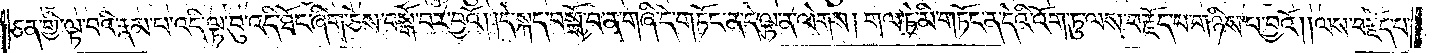ཅན་གྱི་ལྟ་བའི་རྣམ་པ་འདི་ལྟ་བུ་འདི་ཐོང་ཞིག་ཅེས་བསྒོ་བར་བྱའོ། །དེ་སྐད་བསྒོ་བ་ན་གཞི་དེ་གཏོང་ན་དེ་ལྟ་ན་ལེགས། གལ་ཏེ་མི་གཏོང་ན་དེའི་འོག་ཏུ་ལས་བརྗོད་པ་གཉིས་པ་བྱའོ། །ལས་བརྗོད་པ་
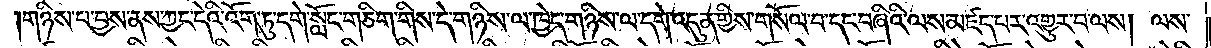གཉིས་པ་བྱས་ནས་ཀྱང་དེའི་འོག་ཏུ་དགེ་སློང་གཅིག་གིས་དེ་གཉིས་ལ་ཁྱེད་གཉིས་ལ་དགེ་འདུན་གྱིས་གསོལ་བ་དང་བཞིའི་ལས་མཛད་པར་འགྱུར་བ་ལས། ལས་
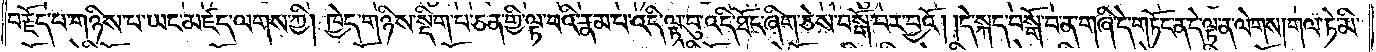བརྗོད་པ་གཉིས་པ་ཡང་མཛད་ལགས་ཀྱི། ཁྱེད་གཉིས་སྡིག་པ་ཅན་གྱི་ལྟ་བའི་རྣམ་པ་འདི་ལྟ་བུ་འདི་ཐོང་ཞིག་ཅེས་བསྒོ་བར་བྱའོ། །དེ་སྐད་བསྒོ་བ་ན་གཞི་དེ་གཏོང་ན་དེ་ལྟ་ན་ལེགས། གལ་ཏེ་མི་
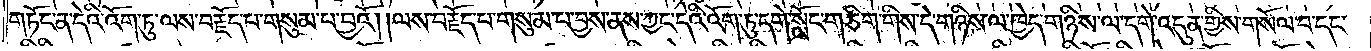གཏོང་ན་དེའི་འོག་ཏུ་ལས་བརྗོད་པ་གསུམ་པ་བྱའོ། །ལས་བརྗོད་པ་གསུམ་པ་བྱས་ནས་ཀྱང་དེའི་འོག་ཏུ་དགེ་སློང་གཅིག་གིས་དེ་གཉིས་ལ་ཁྱེད་གཉིས་ལ་དགེ་འདུན་གྱིས་གསོལ་བ་དང་
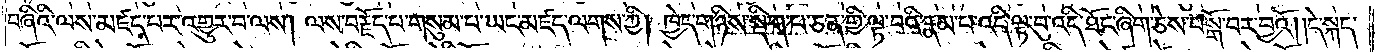བཞིའི་ལས་མཛད་པར་འགྱུར་བ་ལས། ལས་བརྗོད་པ་གསུམ་པ་ཡང་མཛད་ལགས་ཀྱི། ཁྱེད་གཉིས་སྡིག་པ་ཅན་གྱི་ལྟ་བའི་རྣམ་པ་འདི་ལྟ་བུ་འདི་ཐོང་ཞིག་ཅེས་བསྒོ་བར་བྱའོ། །དེ་སྐད་
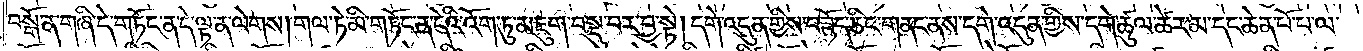བསྒོ་ན་གཞི་དེ་གཏོང་ན་དེ་ལྟ་ན་ལེགས། གལ་ཏེ་མི་གཏོང་ན་དེའི་འོག་ཏུ་མཇུག་བསྡུ་བར་བྱ་སྟེ། དགེ་འདུན་གྱིས་བཟོད་ཅིང་གནང་ནས་དགེ་འདུན་གྱིས་དགེ་ཚུལ་ཚེར་མ་དང་ཆེན་པོ་པ་ལ་
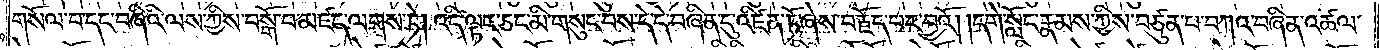གསོལ་བ་དང་བཞིའི་ལས་ཀྱིས་བསྒོ་བ་མཛད་ལགས་ཏེ། འདི་ལྟར་ཅང་མི་གསུང་བས་དེ་དེ་བཞིན་དུ་འཛིན་ཏོ་ཞེས་བརྗོད་པར་བྱའོ། །དགེ་སློང་རྣམས་ཀྱིས་བཙུན་པ་བཀའ་བཞིན་འཚལ་
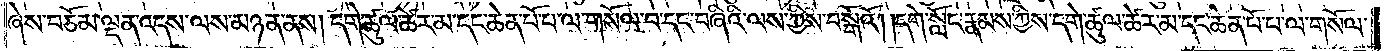ཞེས་བཅོམ་ལྡན་འདས་ལས་མཉན་ནས། དགེ་ཚུལ་ཚེར་མ་དང་ཆེན་པོ་པ་ལ་གསོལ་བ་དང་བཞིའི་ལས་ཀྱིས་བསྒོའོ། །དགེ་སློང་རྣམས་ཀྱིས་དགེ་ཚུལ་ཚེར་མ་དང་ཆེན་པོ་པ་ལ་གསོལ་
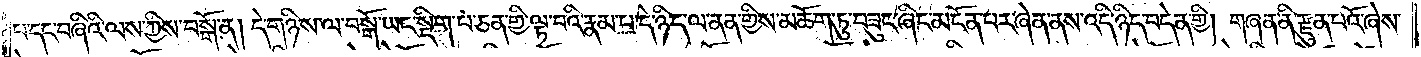པ་དང་བཞིའི་ལས་ཀྱིས་བསྒོ་ན། དེ་གཉིས་ལ་བསྒོ་ཡང་སྡིག་པ་ཅན་གྱི་ལྟ་བའི་རྣམ་པ་དེ་ཉིད་ལ་ནན་གྱིས་མཆོག་ཏུ་བཟུང་ཞིང་མངོན་པར་ཞེན་ནས་འདི་ཉིད་བདེན་གྱི། གཞན་ནི་རྫུན་པའོ་ཞེས་
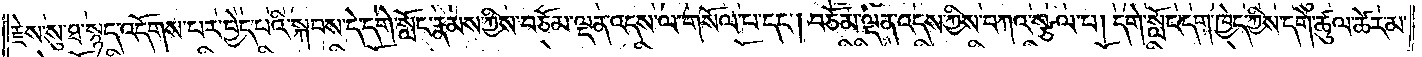རྗེས་སུ་ཐ་སྙད་འདོགས་པར་བྱེད་པའི་སྐབས་དེ་དགེ་སློང་རྣམས་ཀྱིས་བཅོམ་ལྡན་འདས་ལ་གསོལ་པ་དང༌། བཅོམ་ལྡན་འདས་ཀྱིས་བཀའ་སྩལ་པ། དགེ་སློང་དག་ཁྱེད་ཀྱིས་དགེ་ཚུལ་ཚེར་མ་
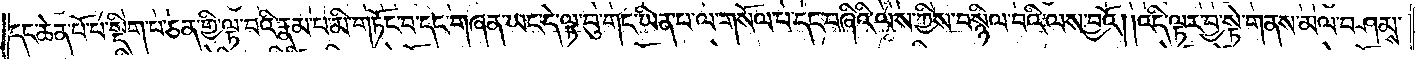དང་ཆེན་པོ་པ་སྡིག་པ་ཅན་གྱི་ལྟ་བའི་རྣམ་པ་མི་གཏོང་བ་དང་གཞན་ཡང་དེ་ལྟ་བུ་གང་ཡིན་པ་ལ་གསོལ་པ་དང་བཞིའི་ལས་ཀྱིས་བསྙིལ་བའི་ལས་བྱའོ། །འདི་ལྟར་བྱ་སྟེ་གནས་མལ་བཤམས་
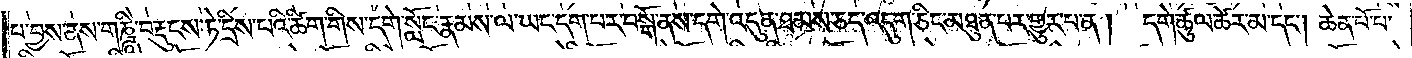པ་བྱས་ནས་གཎྜཱི་བརྡུངས་ཏེ་དྲིས་པའི་ཚིག་གིས་དགེ་སློང་རྣམས་ལ་ཡང་དག་པར་བསྒོ་ནས་དགེ་འདུན་ཐམས་ཅད་འདུག་ཅིང་མཐུན་པར་གྱུར་པ་ན། དགེ་ཚུལ་ཚེར་མ་དང༌། ཆེན་པོ་པ་
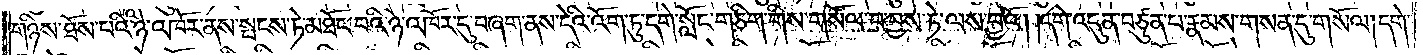གཉིས་ཐོས་པའི་ཉེ་འཁོར་ནས་སྤངས་ཏེ་མཐོང་བའི་ཉེ་འཁོར་དུ་བཞག་ནས་དེའི་འོག་ཏུ་དགེ་སློང་གཅིག་གིས་གསོལ་བ་བྱས་ཏེ་ལས་བྱའོ། །དགེ་འདུན་བཙུན་པ་རྣམས་གསན་དུ་གསོལ། དགེ་
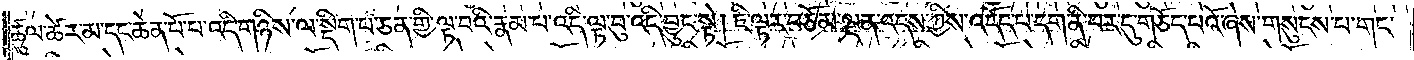ཚུལ་ཚེར་མ་དང་ཆེན་པོ་པ་འདི་གཉིས་ལ་སྡིག་པ་ཅན་གྱི་ལྟ་བའི་རྣམ་པ་འདི་ལྟ་བུ་འདི་བྱུང་སྟེ། ཇི་ལྟར་བཅོམ་ལྡན་འདས་ཀྱིས་འདོད་པ་དག་ནི་བར་དུ་གཅོད་པའོ་ཞེས་གསུངས་པ་གང་
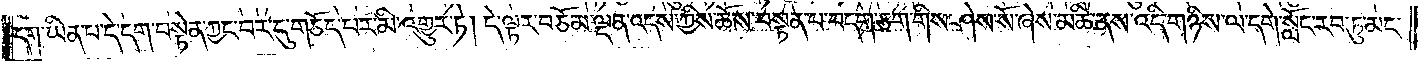དག་ཡིན་པ་དེ་དག་བསྟེན་ཀྱང་བར་དུ་གཅོད་པར་མི་འགྱུར་ཏེ། དེ་ལྟར་བཅོམ་ལྡན་འདས་ཀྱིས་ཆོས་བསྟན་པ་བདག་ཅག་གིས་ཤེས་སོ་ཞེས་མཆི་ནས་འདི་གཉིས་ལ་དགེ་སློང་རབ་ཏུ་མང་
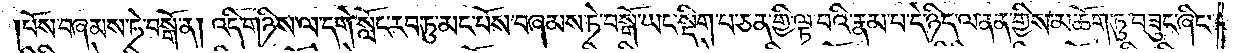པོས་བཞམས་ཏེ་བསྒོ་ན། འདི་གཉིས་ལ་དགེ་སློང་རབ་ཏུ་མང་པོས་བཞམས་ཏེ་བསྒོ་ཡང་སྡིག་པ་ཅན་གྱི་ལྟ་བའི་རྣམ་པ་དེ་ཉིད་ལ་ནན་གྱིས་མཆོག་ཏུ་བཟུང་ཞིང་
